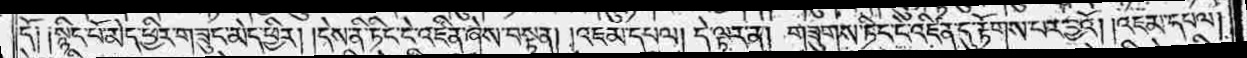དོ༑ ༑སྙིང་པོ་མེད་ཕྱིར་གཟུང་མེད་ཕྱིར། །དེས་ནི་ཏིང་ངེ་འཛིན་ཞེས་བསྟན། །འཇམ་དཔལ། དེ་ལྟར་ན། གཟུགས་ཏིང་ངེ་འཛིན་དུ་རྟོགས་པར་བྱའོ། །འཇམ་དཔལ།
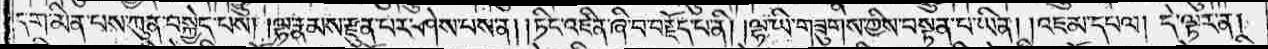དག་མིན་པས་ཀུན་བསྐྱེད་པས། །ལྷ་རྣམས་རྫུན་པར་ཤེས་པས་ན། །ཏིང་འཛིན་ཞི་བ་བརྗོད་པ་ནི། །ལྷ་ཡི་གཟུགས་ཀྱིས་བསྟན་པ་ཡིན། །འཇམ་དཔལ། དེ་ལྟར་ན།
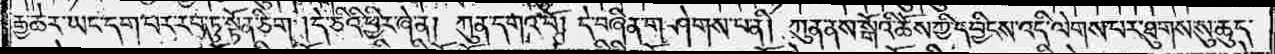རྒྱ་ཆེར་ཡང་དག་པར་རབ་ཏུ་སྟོན་ཅིག །དེ་ཅིའི་ཕྱིར་ཞེ་ན། ཀུན་དགའ་བོ། དེ་བཞིན་གཤེགས་པ་ནི། ཀུན་ནས་སྒོའི་ཆོས་ཀྱི་དབྱིངས་འདི་ལེགས་པར་ཐུགས་སུ་ཆུད་
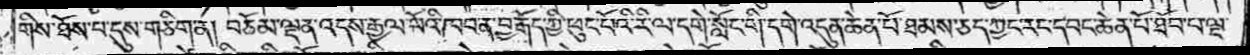གིས་ཐོས་པ་དུས་གཅིག་ན། བཅོམ་ལྡན་འདས་རྒྱལ་པོའི་ཁབ་ན་བྱ་རྒོད་ཀྱི་ཕུང་པོའི་རི་ལ་དགེ་སློང་གི་དགེ་འདུན་ཆེན་པོ་ཐམས་ཅད་ཀྱང་རང་དབང་ཆེན་པོ་ཐོབ་པ་ལྔ་
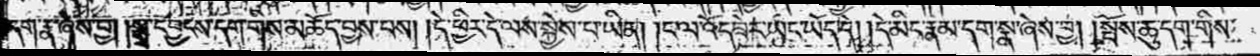དག་སྣ་ཞེས་བྱ། །སྒྲ་དབྱངས་དག་གིས་མཆོད་བྱས་པས། །དེ་ཕྱིར་དེ་ལས་སྐྱེས་པ་ཡིན། །ང་ལ་འོད་ཟེར་ཡང་ཡོད་དེ། །དེ་མིང་རྣམ་དག་སྣ་ཞེས་བྱ། །སྦོས་ཆུ་དག་གིས་
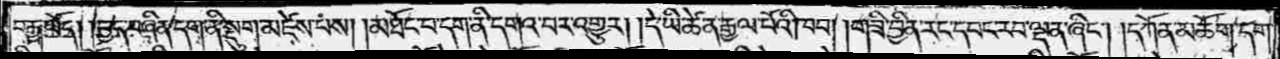བརྒྱ་ཡོད། །བྱད་བཞིན་དག་ནི་སྡུག་མཛེས་པས། །མཐོང་བ་དག་ནི་དགའ་བར་འགྱུར། །དེ་ཡི་ཚེ་ན་རྒྱལ་པོའི་ཁབ། །གཟི་བྱིན་རང་དབང་རབ་ལྡན་ཞིང༌། །དཀོན་མཆོག་དག་
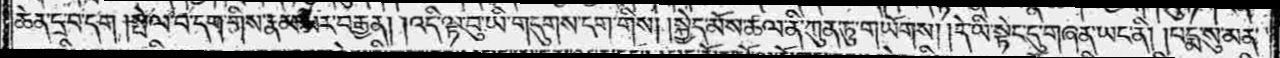ཆེན་དྲ་བ་དག །སྤེལ་བ་དག་གིས་རྣམ་པར་བརྒྱན། །འདི་ལྟ་བུ་ཡི་གདུགས་དག་གིས། །སྐྱེད་མོས་ཚལ་ནི་ཀུན་ཏུ་གཡོགས། །དེ་ཡི་སྟེང་དུ་གཞན་ཡང་ནི། །པདྨ་སུ་མན་
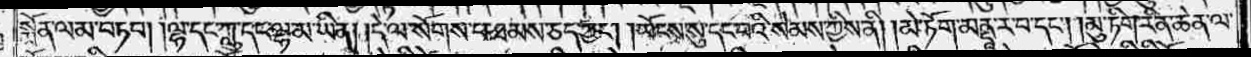སྨོན་ལམ་བཏབ། །ལྷ་དང་ཀླུ་དང་ལྷ་མ་ཡིན། །དེ་ལ་སོགས་པ་ཐམས་ཅད་ཀྱང༌། །ཡོངས་སུ་དང་བའི་སེམས་ཀྱིས་ནི། །མེ་ཏོག་མནྡཱ་ར་བ་དང༌། །མུ་ཏིག་རིན་ཆེན་ལ་
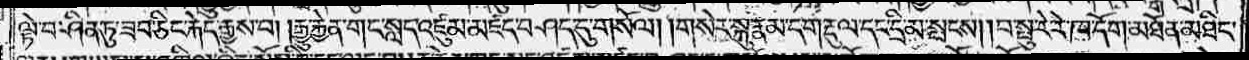ལྟེ་བ་ཤིན་ཏུ་ཟབ་ཅིང་རྐེད་རྒྱས་པ། །རྒྱུ་རྐྱེན་གང་སླད་འཛུམ་མཛད་བཤད་དུ་གསོལ། །གསེར་སྐུ་རྣམ་དག་རྡུལ་དང་དྲི་མ་སྤངས། །བ་སྤུ་རེ་རེ་ཁ་དོག་མཐོན་མཐིང་
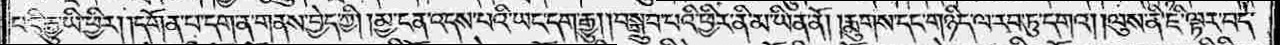པའི་རྒྱུ་ཡི་ཕྱིར། །དགོན་པ་དག་ན་གནས་བྱེད་ཀྱི། །མྱ་ངན་འདས་པའི་ཡང་དག་རྒྱུ། །བསྒྲུབ་པའི་ཕྱིར་ནི་མ་ཡིན་ནོ། །རྨུགས་དང་གཉིད་ལ་རབ་ཏུ་དགའ། །ལུས་ནི་ཇི་ལྟར་བདེ་
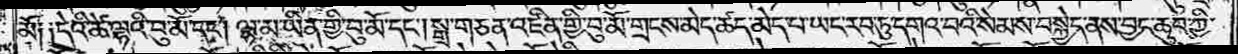མོ༑ ༑དེའི་ཚེ་ལྷའི་བུ་མོ་དང༌། ལྷ་མ་ཡིན་གྱི་བུ་མོ་དང༌། སྒྲ་གཅན་འཛིན་གྱི་བུ་མོ་གྲངས་མེད་ཚད་མེད་པ་ཡང་རབ་ཏུ་དགའ་བའི་སེམས་བསྐྱེད་ནས་བྱང་ཆུབ་ཀྱི་
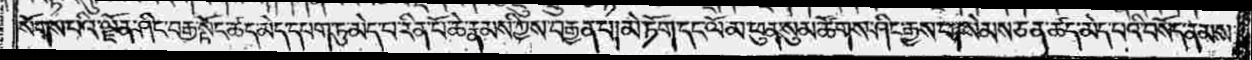སོགས་པའི་ལྗོན་ཤིང་བརྒྱ་སྟོང་ཚད་མེད་དཔག་ཏུ་མེད་པ་རིན་པོ་ཆེ་རྣམས་ཀྱིས་བརྒྱན་པ། མེ་ཏོག་དང་ལོ་མ་ཕུན་སུམ་ཚོགས་ཤིང་རྒྱས་པ། སེམས་ཅན་ཚད་མེད་པའི་བསོད་ནམས་
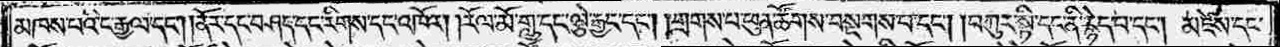མཁས་པའི་ང་རྒྱལ་དང༌། །ནོར་དང་བཤད་དང་རིགས་དང་འཁོར། །རོལ་མོ་གླུ་དང་ལྕེ་རྒྱད་དང༌། །གྲགས་བ་ཕུན་ཚོགས་བསྔགས་པ་དང༌། །བཀུར་སྟི་དང་ནི་རྙེད་པ་དང༌། མཛེས་དང་
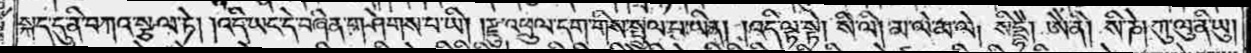སྐད་དུ་ནི་བཀའ་སྩལ་ཏེ། །འདི་ཡང་དེ་བཞིན་གཤེགས་པ་ཡི། །རྫུ་འཕྲུལ་དག་གིས་སྤྲུལ་པ་ཡིན། །འདི་ལྟ་སྟེ། སི་ལི། མ་ལེ་མ་ལེ། སིདྡྷཻ། ཨཻ་ནི། སི་ཎེ། ཀུ་ལུ་ནི་ཡུ།
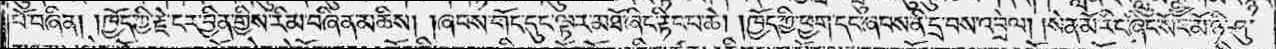པོ་བཞིན། །ཁྱོད་ཀྱི་རྗེ་ངར་བྱིན་གྱིས་རིམ་བཞིན་མཆིས། །ཞབས་གོང་དུང་ལྟར་མཐོ་ཞིང་རྟིང་པ་ཆེ། །ཁྱོད་ཀྱི་ཕྱག་དང་ཞབས་ནི་དྲ་བས་འབྲེལ། །སེན་མོ་རིང་ཞིང་སོར་མོ་ཉི་ཤུ་
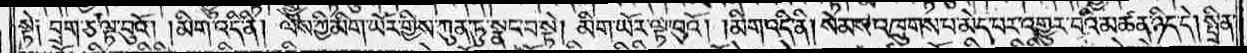སྟེ༑ བྲག་ཅ་ལྟ་བུའོ། །མིག་འདི་ནི། ལས་ཀྱི་མིག་ཡོར་གྱིས་ཀུན་ཏུ་སྣང་བ་སྟེ། མིག་ཡོར་ལྟ་བུའོ། །མིག་འདི་ནི། སེམས་འཁྲུགས་པ་མེད་པར་འགྱུར་བའི་མཚན་ཉིད་དེ། སྤྲིན་
